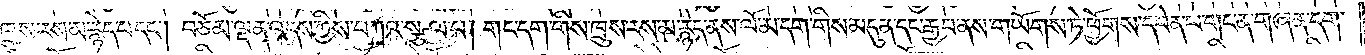ཁྲུས་རས་མ་རྙེད་པ་དང༌། བཅོམ་ལྡན་འདས་ཀྱིས་བཀའ་སྩལ་པ། གང་དག་གིས་ཁྲུས་རས་མ་རྙེད་ནས་ལོ་མ་དག་གིས་མདུན་དང་རྒྱབ་ནས་གཡོགས་ཏེ་ཕྱོགས་དབེན་པ་གང་ན་གཞན་དག་
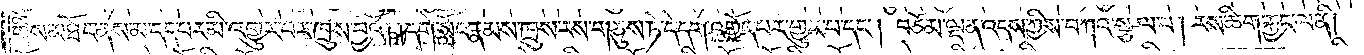གིས་མཐོང་ནས་མ་དད་པར་མི་འགྱུར་བར་ཁྲུས་བྱའོ། །དགེ་སློང་རྣམས་ཁྲུས་རས་གཅུས་ཏེ་དེ་དག་འགྱོད་པར་གྱུར་པ་དང༌། བཅོམ་ལྡན་འདས་ཀྱིས་བཀའ་སྩལ་པ། རས་ཆིག་རྐྱང་ལ་ནི།
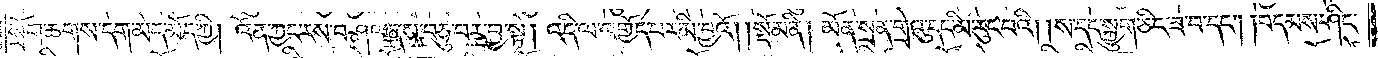སྲོག་ཆགས་དག་མེད་མོད་ཀྱི། འོན་ཀྱང་རས་བཤལ་ནས་བཅུ་བར་བྱ་སྟེ། འདི་ལ་འགྱོད་པར་མི་བྱའོ།    །སྡོམ་ནི། མོན་སྲན་གྲེའུ་དང་མི་རུང་བའི། །ས་དང་སྐྱུག་ཅིང་ཟ་བ་དང༌། །བདམས་ཤིང་
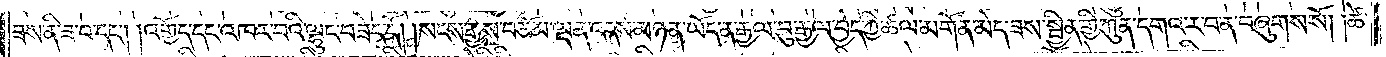ཟས་ནི་ཟ་བ་དང༌། །འགྱོད་དང་འཁར་བའི་ལྷུང་བཟེད་དོ། །སངས་རྒྱས་བཅོམ་ལྡན་འདས་མཉན་ཡོད་ན་རྒྱལ་བུ་རྒྱལ་བྱེད་ཀྱི་ཚལ་མགོན་མེད་ཟས་སྦྱིན་གྱི་ཀུན་དགའ་ར་བ་ན་བཞུགས་སོ། །ཚེ་
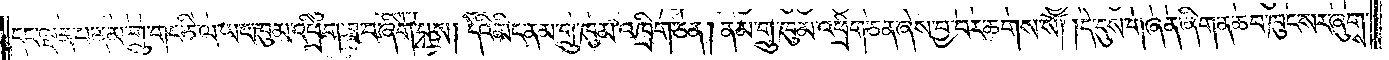དང་ལྡན་པ་ནམ་གྲུ་གང་ཅི་ལ་ཡང་ཁུམ་འཕྲིག་ཟ་བ་ཞིག་པས། དེའི་མིང་ནམ་གྲུ་ཁུམ་འཁྲིག་ཅན། ནམ་གྲུ་ཁུམ་འཕྲིག་ཅན་ཞེས་བྱ་བར་ཆགས་སོ། །དེ་དུས་གཞན་ཞིག་ན་ཆབ་ཁུང་སར་ཞུགས་
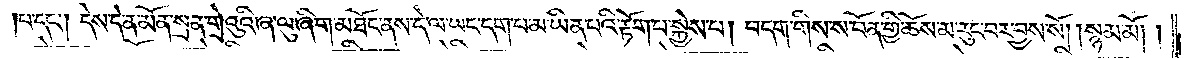པ་དང༌། དེས་དེ་ན་མོན་སྲན་གྲེའུའི་ཞ་ལུ་ཞིག་མཐོང་ནས་དེ་ལ་ཡང་དག་པ་མ་ཡིན་པའི་རྟོག་པ་སྐྱེས་པ། བདག་གིས་ས་བོན་གྱི་ཆོས་མ་རུང་བར་བྱས་སོ། །སྙམ་མོ། །
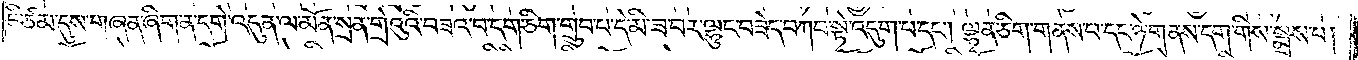ཇི་ཙམ་དུས་གཞན་ཞིག་ན་དག་འདུན་ལ་མོན་སྲན་གྲེའུའི་བཟའ་བ་དག་ཅིག་གྲུབ་པ་དེ་མི་ཟ་བར་ལྷུང་བཟེད་བཀབ་སྟེ་འདུག་པ་དང༌། ལྷན་ཅིག་གནས་པ་དང་ཉེ་གནས་དག་གིས་སྨྲས་པ།
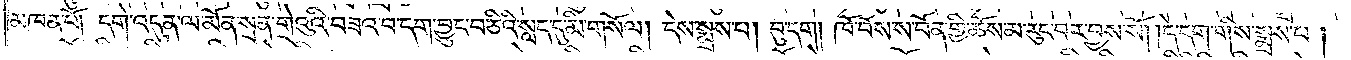མཁན་པོ། དགེ་འདུན་ལ་མོན་སྲན་གྲེའུའི་བཟའ་བ་དག་བྱུང་བ་ཅིའི་སླད་དུ་མི་གསོལ། དེས་སྨྲས་པ། བུ་དག །ཁོ་བོས་ས་བོན་གྱི་ཆོས་མ་རུང་བར་བྱས་སོ། །དེ་དག་གིས་སྨྲས་པ།
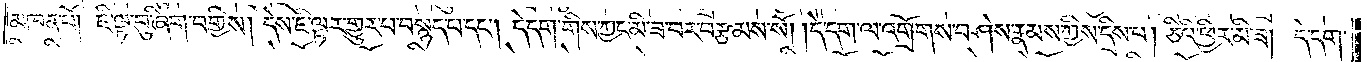མཁན་པོ། ཇི་ལྟ་བུ་ཞིག་བགྱིས། དེས་ཇི་ལྟར་གྱུར་པ་བསྙད་པ་དང༌། དེ་དག་གིས་ཀྱང་མི་ཟ་བར་བརྩམས་སོ། །དེ་དག་ལ་འགྲོགས་བཤེས་རྣམས་ཀྱིས་དྲིས་པ། ཅིའི་ཕྱིར་མི་ཟ། དེ་དག་
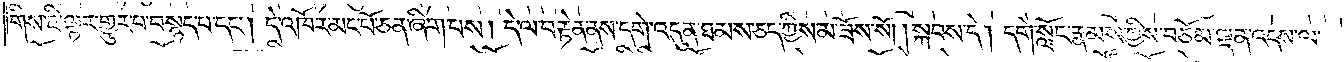གིས་ཇི་ལྟར་གྱུར་པ་བསྙད་པ་དང༌། དེ་འཁོར་མང་པོ་ཅན་ཞིག་པས། དེ་ལ་བརྟེན་ནས་དགེ་འདུན་ཐམས་ཅད་ཀྱིས་མ་ཟོས་སོ། །སྐབས་དེ། དགེ་སློང་རྣམས་ཀྱིས་བཅོམ་ལྡན་འདས་ལ་
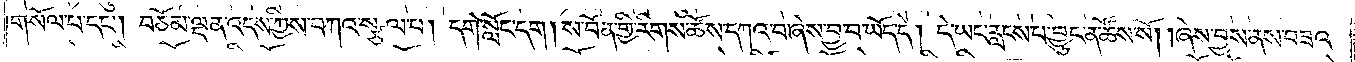གསོལ་པ་དང༌། བཅོམ་ལྡན་འདས་ཀྱིས་བཀའ་སྩལ་པ། དགེ་སློང་དག །ས་བོན་གྱི་རིགས་ཚོས་དཀའ་བ་ཞེས་བྱ་བ་ཡོད་དེ། དེ་ཡང་རླངས་པ་བྱུང་ན་ཆོས་སོ། །ཞེས་བྱས་ནས་བཟའ་
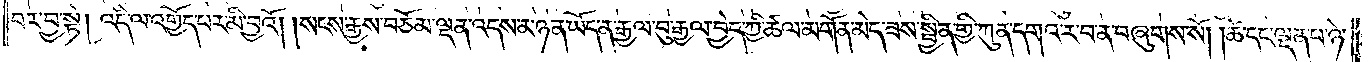བར་བྱ་སྟེ། འདི་ལ་འགྱོད་པར་མི་བྱའོ། །སངས་རྒྱས་བཅོམ་ལྡན་འདས་མཉན་ཡོད་ན་རྒྱལ་བུ་རྒྱལ་བྱེད་ཀྱི་ཚལ་མགོན་མེད་ཟས་སྦྱིན་གྱི་ཀུན་དགའ་ར་བ་ན་བཞུགས་སོ། །ཚེ་དང་ལྡན་པ་ཉེ་
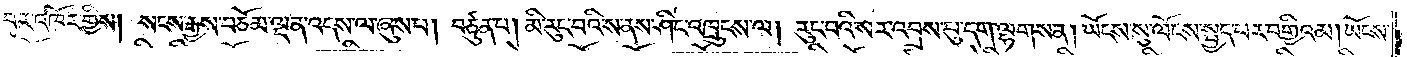བར་འཁོར་གྱིས། སངས་རྒྱས་བཅོམ་ལྡན་འདས་ལ་ཞུས་པ། བཙུན་པ། མི་རུང་བའི་ས་ནས་ཤིང་འཁྲུངས་ལ། རུང་བའི་སར་འབྲས་བུ་དག་ལྷགས་ན། ཡོངས་སུ་ལོངས་སྤྱོད་པར་བགྱིའམ། ཡོངས་
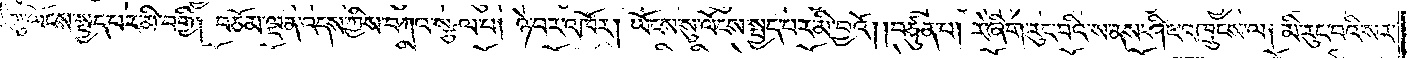སུ་ལོངས་སྤྱོད་པར་མི་བགྱི། བཅོམ་ལྡན་འདས་ཀྱིས་བཀའ་སྩལ་པ། ཉེ་བར་འཁོར། ཡོངས་སུ་ལོངས་སྤྱོད་པར་མི་བྱའོ། །བཙུན་པ། རེ་ཞིག་རུང་བའི་ས་ནས་ཤིང་འཁྲུངས་ལ། མི་རུང་བའི་སར་
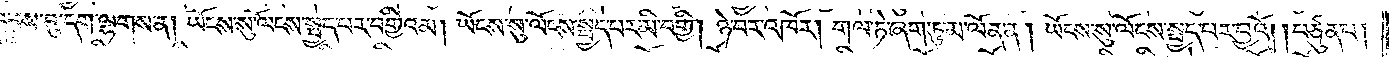འབྲས་བུ་དག་ལྷགས་ན། ཡོངས་སུ་ལོངས་སྤྱད་པར་བགྱིའམ། ཡོངས་སུ་ལོངས་སྤྱད་པར་མི་བགྱི། ཉེ་བར་འཁོར། གལ་ཏེ་ཞག་ཏུ་མ་ལོན་ན། ཡོངས་སུ་ལོངས་སྤྱད་པར་བྱའོ། །བཙུན་པ།
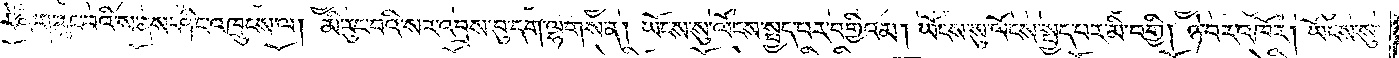རེ་ཞིག་རུང་བའི་ས་ནས་ཤིང་འཁྲུངས་ལ། མི་རུང་བའི་སར་འབྲས་བུ་དག་ལྷགས་ན། ཡོངས་སུ་ལོངས་སྤྱོད་པར་བགྱིའམ། ཡོངས་སུ་ལོངས་སྤྱད་པར་མི་བགྱི། ཉེ་བར་འཁོར། ཡོངས་སུ་
